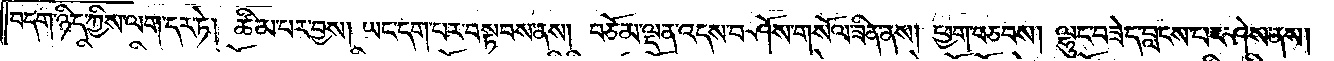བདག་ཉིད་ཀྱིས་ལག་དར་ཏེ། ཚིམ་པར་བྱས། ཡང་དག་པར་བསྟབས་ནས། བཅོམ་ལྡན་འདས་བཤོས་གསོལ་ཟིན་ནས། ཕྱག་བཅབས། ལྷུང་བཟེད་བླངས་པར་ཤེས་ནས།
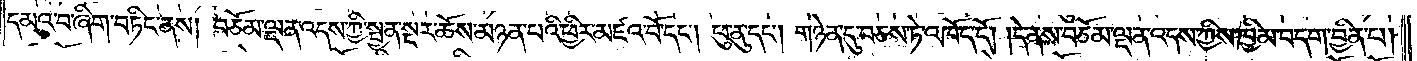དམའ་བ་ཞིག་བཏིང་ནས། བཅོམ་ལྡན་འདས་ཀྱི་སྤྱན་སྔར་ཆོས་མཉན་པའི་ཕྱིར་མཛའ་བོ་དང༌། ཕུ་ནུ་དང༌། གཉེན་དུ་བཅས་ཏེ་འཁོད་དོ། །དེ་ནས་བཅོམ་ལྡན་འདས་ཀྱིས་ཁྱིམ་བདག་བྱིན་པ།
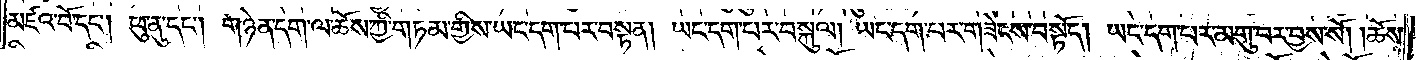མཛའ་བོ་དང༌། ཕུ་ནུ་དང༌། གཉེན་དག་ལ་ཆོས་ཀྱི་གཏམ་གྱིས་ཡང་དག་པར་བསྟན། ཡང་དག་པར་བསྐུལ། ཡང་དག་པར་གཟེངས་བསྟོད། ཡང་དག་པར་མགུ་བར་བྱས་སོ། །ཆོས་
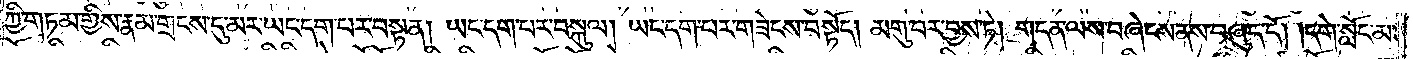ཀྱི་གཏམ་གྱིས་རྣམ་གྲངས་དུ་མར་ཡང་དག་པར་བསྟན། ཡང་དག་པར་བསྐུལ། ཡང་དག་པར་གཟེངས་བསྟོད། མགུ་བར་བྱས་ཏེ། གདན་ལས་བཞེངས་ནས་བཞུད་དོ། །དགེ་སློང་མ་
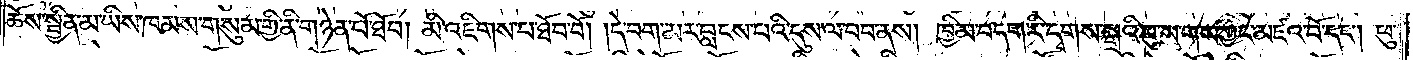ཆོས་སྦྱིན་མ་ཡིས་ཁམས་གསུམ་གྱི་ནི་གཉེན་པོ་ཐོབ། མི་འཇིགས་པ་ཐོབ་བོ། །དེ་བག་མར་བླངས་པའི་དུས་ལ་བབ་ནས། ཁྱིམ་བདག་རི་དྭགས་སྒྲའི་བུ་ས་གས་ཀྱང་མཛའ་བོ་དང༌། ཕུ་
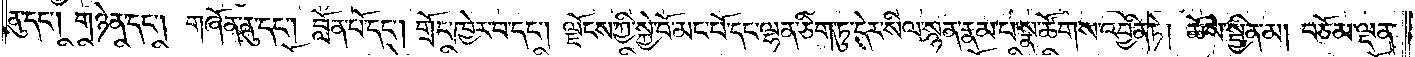ནུ་དང༌། གཉེན་དང༌། གཞོན་ནུ་དང༌། བློན་པོ་དང༌། གྲོང་ཁྱེར་བ་དང༌། ལྗོངས་ཀྱི་སྐྱེ་བོ་མང་པོ་དང་ལྷན་ཅིག་ཏུ་དེར་སིལ་སྙན་རྣམ་པ་སྣ་ཚོགས་འབྱིན་ཏེ། ཆོས་སྦྱིན་མ། བཅོམ་ལྡན་
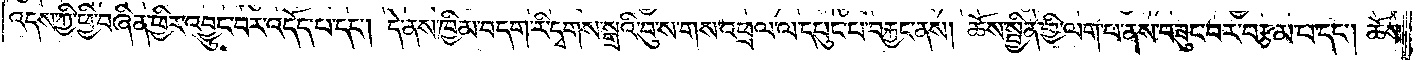འདས་ཀྱི་ཕྱི་བཞིན་ཕྱིར་འབྱུང་བར་འདོད་པ་དང༌། དེ་ནས་ཁྱིམ་བདག་རི་དྭགས་སྒྲའི་བུ་ས་གས་འཕྲལ་ལ་དཔུང་པ་བརྐྱང་ནས། ཆོས་སྦྱིན་གྱི་ལག་པ་ནས་བཟུང་བར་བརྩམ་པ་དང༌། ཆོས་
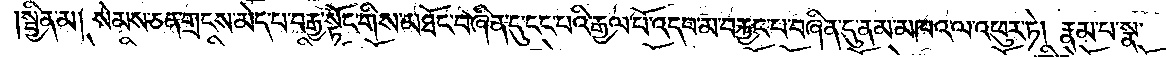སྦྱིན་མ། སེམས་ཅན་གྲངས་མེད་པ་བརྒྱ་སྟོང་གིས་མཐོང་བཞིན་དུ་ངང་པའི་རྒྱལ་པོ་འདབ་མ་བརྐྱང་པ་བཞིན་དུ་ནམ་མཁའ་ལ་འཕུར་ཏེ། རྣམ་པ་སྣ་
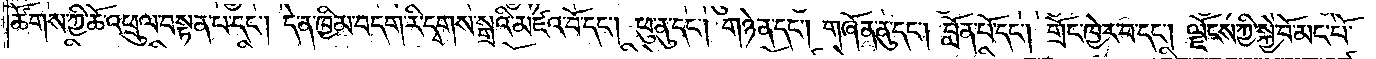ཚོགས་ཀྱི་ཆོ་འཕྲུལ་བསྟན་པ་དང༌། དེ་ན་ཁྱིམ་བདག་རི་དྭགས་སྒྲའི་མཛའ་བོ་དང༌། ཕུ་ནུ་དང༌། གཉེན་དང༌། གཞོན་ནུ་དང༌། བློན་པོ་དང༌། གྲོང་ཁྱེར་བ་དང༌། ལྗོངས་ཀྱི་སྐྱེ་བོ་མང་པོ་
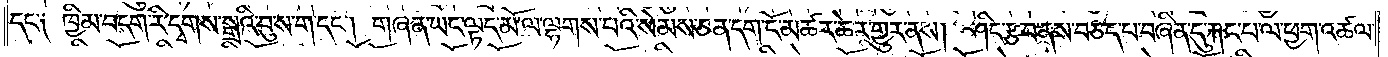དང་༑ ཁྱིམ་བདག་རི་དྭགས་སྒྲའི་བུ་ས་ག་དང༌། གཞན་ཡང་ལྟད་མོ་ལ་ལྷགས་པའི་སེམས་ཅན་དག་ངོ་མཚར་ཆེར་གྱུར་ནས། ཤིང་རྩ་བ་ནས་བཅད་པ་བཞིན་དུ་རྐང་པ་ལ་ཕྱག་འཚལ་
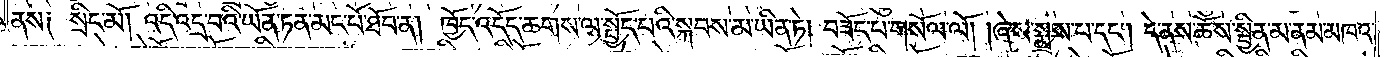ནས༑ སྲིང་མོ། འདི་འདྲ་བའི་ཡོན་ཏན་མང་པོ་ཐོབ་ན། ཁྱོད་འདོད་ཆགས་ལ་སྤྱོད་པའི་སྐབས་མ་ཡིན་ཏེ། བཟོད་པ་གསོལ་ལོ། །ཞེས་སྨྲས་པ་དང༌། དེ་ནས་ཆོས་སྦྱིན་མ་ནམ་མཁའ་
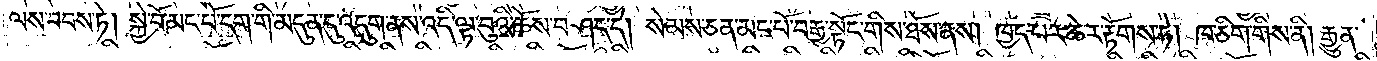ལས་བབས་ཏེ། སྐྱེ་བོ་མང་པོ་དག་གི་མདུན་དུ་འདུག་ནས་འདི་ལྟ་བུའི་ཆོས་བཤད་དེ། སེམས་ཅན་མང་པོ་བརྒྱ་སྟོང་གིས་ཐོས་ནས། ཁྱད་པར་ཆེར་རྟོགས་ཏེ། ཁ་ཅིག་གིས་ནི། རྒྱུན་
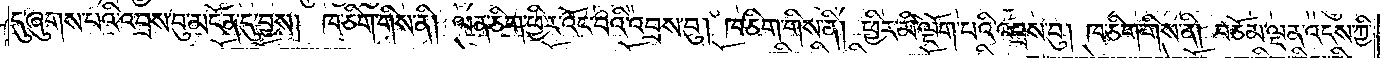དུ་ཞུགས་པའི་འབྲས་བུ་མངོན་དུ་བྱས། ཁ་ཅིག་གིས་ནི། ལན་ཅིག་ཕྱིར་འོང་བའི་འབྲས་བུ། ཁ་ཅིག་གིས་ནི། ཕྱིར་མི་ལྡོག་པའི་འབྲས་བུ། ཁ་ཅིག་གིས་ནི། བཅོམ་ལྡན་འདས་ཀྱི་
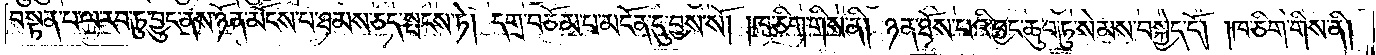བསྟན་པ་ལ་རབ་ཏུ་བྱུང་ནས་ཉོན་མོངས་པ་ཐམས་ཅད་སྤངས་ཏེ། དགྲ་བཅོམ་པ་མངོན་དུ་བྱས་སོ། །ཁ་ཅིག་གིས་ནི། ཉན་ཐོས་པའི་བྱང་ཆུབ་ཏུ་སེམས་བསྐྱེད་དོ། །ཁ་ཅིག་གིས་ནི།
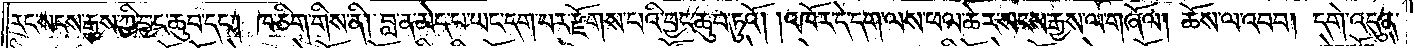རང་སངས་རྒྱས་ཀྱི་བྱང་ཆུབ་དང༌། ཁ་ཅིག་གིས་ནི། བླ་ན་མེད་པ་ཡང་དག་པར་རྫོགས་པའི་བྱང་ཆུབ་ཏུའོ། །འཁོར་དེ་དག་ལས་ཕལ་ཆེར་སངས་རྒྱས་ལ་གཞོལ། ཆོས་ལ་འབབ། དགེ་འདུན་
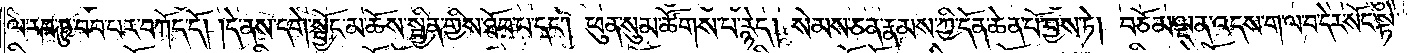ལ་རབ་ཏུ་བབ་པར་བཀོད་དོ། །དེ་ནས་དགེ་སྦྱོང་མ་ཆོས་སྦྱིན་གྱིས་ཐོབ་པ་དང༌། ཕུན་སུམ་ཚོགས་པ་རྙེད། སེམས་ཅན་རྣམས་ཀྱི་དོན་ཆེན་པོ་བྱས་ཏེ། བཅོམ་ལྡན་འདས་ག་ལ་བ་དེར་སོང་སྟེ་
